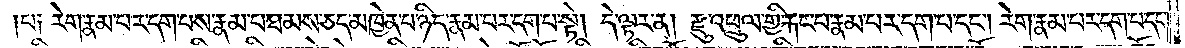པ༑ རེག་རྣམ་པར་དག་པས་རྣམ་པ་ཐམས་ཅད་མཁྱེན་པ་ཉིད་རྣམ་པར་དག་པ་སྟེ། དེ་ལྟར་ན། རྫུ་འཕྲུལ་གྱི་རྐང་པ་རྣམ་པར་དག་པ་དང༌། རེག་རྣམ་པར་དག་པ་དང༌།
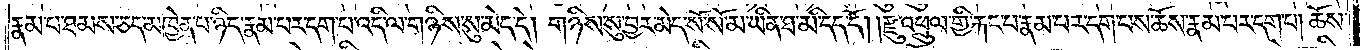རྣམ་པ་ཐམས་ཅད་མཁྱེན་པ་ཉིད་རྣམ་པར་དག་པ་འདི་ལ་གཉིས་སུ་མེད་དེ། གཉིས་སུ་བྱར་མེད་སོ་སོ་མ་ཡིན་ཐ་མི་དད་དོ། །རྫུ་འཕྲུལ་གྱི་རྐང་པ་རྣམ་པར་དག་པས་ཆོས་རྣམ་པར་དག་པ། ཆོས་
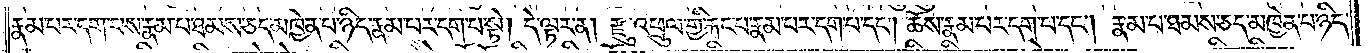རྣམ་པར་དག་པས་རྣམ་པ་ཐམས་ཅད་མཁྱེན་པ་ཉིད་རྣམ་པར་དག་པ་སྟེ། དེ་ལྟར་ན། རྫུ་འཕྲུལ་གྱིས་རྐང་པ་རྣམ་པར་དག་པ་དང༌། ཆོས་རྣམ་པར་དག་པ་དང༌། རྣམ་པ་ཐམས་ཅད་མཁྱེན་པ་ཉིད་
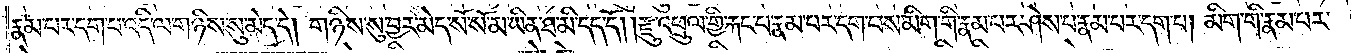རྣམ་པར་དག་པ་འདི་ལ་གཉིས་སུ་མེད་དེ། གཉིས་སུ་བྱར་མེད་སོ་སོ་མ་ཡིན་ཐ་མི་དད་དོ། །རྫུ་འཕྲུལ་གྱི་རྐང་པ་རྣམ་པར་དག་པས་མིག་གི་རྣམ་པར་ཤེས་པ་རྣམ་པར་དག་པ། མིག་གི་རྣམ་པར་
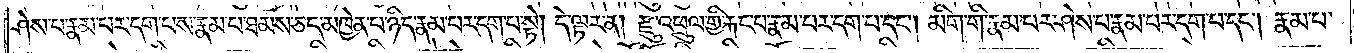ཤེས་པ་རྣམ་པར་དག་པས་རྣམ་པ་ཐམས་ཅད་མཁྱེན་པ་ཉིད་རྣམ་པར་དག་པ་སྟེ། དེ་ལྟར་ན། རྫུ་འཕྲུལ་གྱི་རྐང་པ་རྣམ་པར་དག་པ་དང༌། མིག་གི་རྣམ་པར་ཤེས་པ་རྣམ་པར་དག་པ་དང༌། རྣམ་པ་
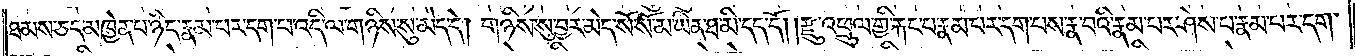ཐམས་ཅད་མཁྱེན་པ་ཉིད་རྣམ་པར་དག་པ་འདི་ལ་གཉིས་སུ་མེད་དེ། གཉིས་སུ་བྱར་མེད་སོ་སོ་མ་ཡིན་ཐ་མི་དད་དོ། །རྫུ་འཕྲུལ་གྱི་རྐང་པ་རྣམ་པར་དག་པས་རྣ་བའི་རྣམ་པར་ཤེས་པ་རྣམ་པར་དག་
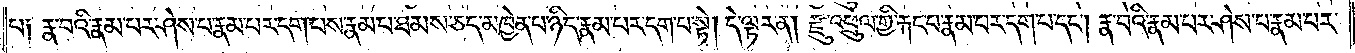པ༑ རྣ་བའི་རྣམ་པར་ཤེས་པ་རྣམ་པར་དག་པས་རྣམ་པ་ཐམས་ཅད་མཁྱེན་པ་ཉིད་རྣམ་པར་དག་པ་སྟེ། དེ་ལྟར་ན། རྫུ་འཕྲུལ་གྱི་རྐང་པ་རྣམ་པར་དག་པ་དང༌། རྣ་བའི་རྣམ་པར་ཤེས་པ་རྣམ་པར་
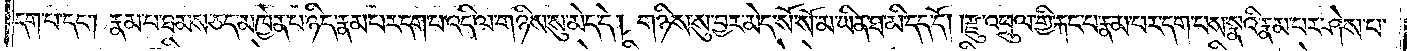དག་པ་དང༌། རྣམ་པ་ཐམས་ཅད་མཁྱེན་པ་ཉིད་རྣམ་པར་དག་པ་འདི་ལ་གཉིས་སུ་མེད་དེ། གཉིས་སུ་བྱར་མེད་སོ་སོ་མ་ཡིན་ཐ་མི་དད་དོ། །རྫུ་འཕྲུལ་གྱི་རྐང་པ་རྣམ་པར་དག་པས་སྣའི་རྣམ་པར་ཤེས་པ་
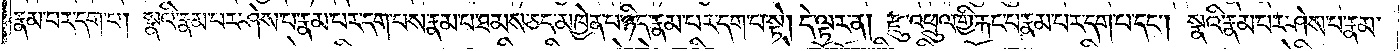རྣམ་པར་དག་པ། སྣའི་རྣམ་པར་ཤེས་པ་རྣམ་པར་དག་པས་རྣམ་པ་ཐམས་ཅད་མཁྱེན་པ་ཉིད་རྣམ་པར་དག་པ་སྟེ། དེ་ལྟར་ན། རྫུ་འཕྲུལ་གྱི་རྐང་པ་རྣམ་པར་དག་པ་དང༌། སྣའི་རྣམ་པར་ཤེས་པ་རྣམ་
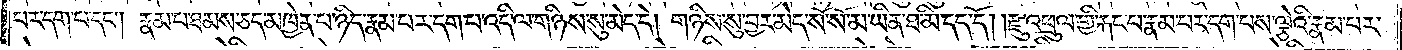པར་དག་པ་དང༌། རྣམ་པ་ཐམས་ཅད་མཁྱེན་པ་ཉིད་རྣམ་པར་དག་པ་འདི་ལ་གཉིས་སུ་མེད་དེ། གཉིས་སུ་བྱར་མེད་སོ་སོ་མ་ཡིན་ཐ་མི་དད་དོ། །རྫུ་འཕྲུལ་གྱི་རྐང་པ་རྣམ་པར་དག་པས་ལྕེའི་རྣམ་པར་
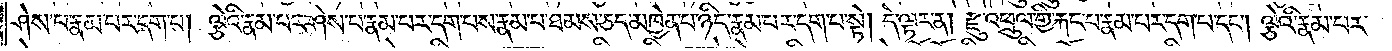ཤེས་པ་རྣམ་པར་དག་པ། ལྕེའི་རྣམ་པར་ཤེས་པ་རྣམ་པར་དག་པས་རྣམ་པ་ཐམས་ཅད་མཁྱེན་པ་ཉིད་རྣམ་པར་དག་པ་སྟེ། དེ་ལྟར་ན། རྫུ་འཕྲུལ་གྱི་རྐང་པ་རྣམ་པར་དག་པ་དང༌། ལྕེའི་རྣམ་པར་
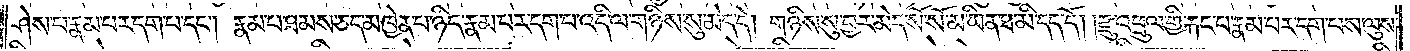ཤེས་པ་རྣམ་པར་དག་པ་དང༌། རྣམ་པ་ཐམས་ཅད་མཁྱེན་པ་ཉིད་རྣམ་པར་དག་པ་འདི་ལ་གཉིས་སུ་མེད་དེ། གཉིས་སུ་བྱར་མེད་སོ་སོ་མ་ཡིན་ཐ་མི་དད་དོ། །རྫུ་འཕྲུལ་གྱི་རྐང་པ་རྣམ་པར་དག་པས་ལུས་
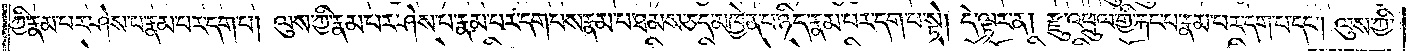ཀྱི་རྣམ་པར་ཤེས་པ་རྣམ་པར་དག་པ། ལུས་ཀྱི་རྣམ་པར་ཤེས་པ་རྣམ་པར་དག་པས་རྣམ་པ་ཐམས་ཅད་མཁྱེན་པ་ཉིད་རྣམ་པར་དག་པ་སྟེ། དེ་ལྟར་ན། རྫུ་འཕྲུལ་གྱི་རྐང་པ་རྣམ་པར་དག་པ་དང༌། ལུས་ཀྱི་
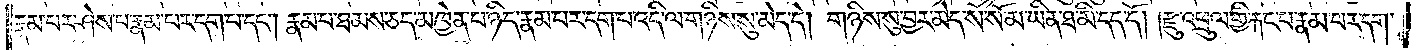རྣམ་པར་ཤེས་པ་རྣམ་པར་དག་པ་དང༌། རྣམ་པ་ཐམས་ཅད་མཁྱེན་པ་ཉིད་རྣམ་པར་དག་པ་འདི་ལ་གཉིས་སུ་མེད་དེ། གཉིས་སུ་བྱར་མེད་སོ་སོ་མ་ཡིན་ཐ་མི་དད་དོ། །རྫུ་འཕྲུལ་གྱི་རྐང་པ་རྣམ་པར་དག་
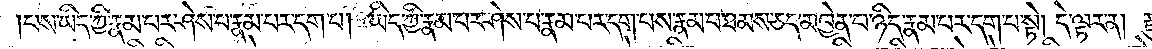པས་ཡིད་ཀྱི་རྣམ་པར་ཤེས་པ་རྣམ་པར་དག་པ། ཡིད་ཀྱི་རྣམ་པར་ཤེས་པ་རྣམ་པར་དག་པས་རྣམ་པ་ཐམས་ཅད་མཁྱེན་པ་ཉིད་རྣམ་པར་དག་པ་སྟེ། དེ་ལྟར་ན། རྫུ་
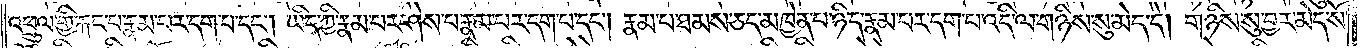འཕྲུལ་གྱི་རྐང་པ་རྣམ་པར་དག་པ་དང༌། ཡིད་ཀྱི་རྣམ་པར་ཤེས་པ་རྣམ་པར་དག་པ་དང༌། རྣམ་པ་ཐམས་ཅད་མཁྱེན་པ་ཉིད་རྣམ་པར་དག་པ་འདི་ལ་གཉིས་སུ་མེད་དེ། གཉིས་སུ་བྱར་མེད་སོ་
